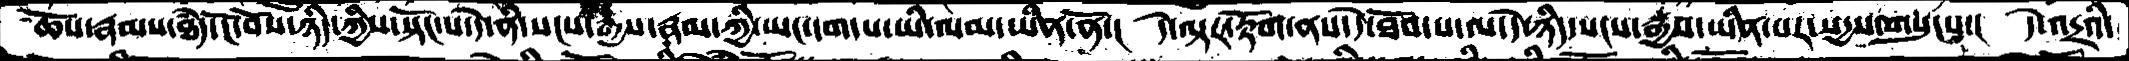ཆོས་རྣམས་ཐཾད་ངོ་བོས་ཉིད་ཀྱིས་སྟོང་པ་དེ་ནི་སངས་རྒྱས་རྣམ་ཀྱི་ཡང་དག་པ་ཡི་ལམ་ཡིན་ནོ་།  དེ་ལྟར་རྟོག་ནས་དེ་ཐོབ་པ་ལ་དེ་ཉིད་སངས་རྒྱས་ཡིན་པར་སདྱས་གསུངས་།  དེ་འདྲའི་
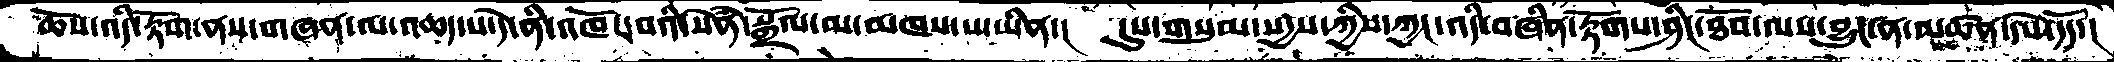ཆོས་འདི་རྟོག་ནས་གཞན་ལ་འཆད་པ་དེ་ནི་འཁོར་བའི་སེཾན་སྒྲོལ་མ་མཁས་པ་ཡིན་།  དུས་གསུམ་སདྱས་ཀྱིས་ཀྱང་འདི་བཞིན་རྟོགས་ཤིང་ཐོབ་ལས་བྱུང་ན་མཚན་དཔེ་དོད་།
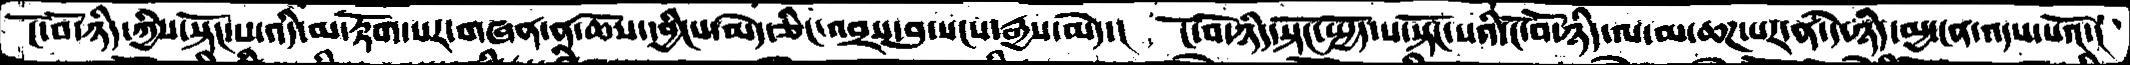ངོ་བོ་ཉིད་ཀྱིས་སྟོང་པ་འདི་མ་རྟོག་པར་གཞན་ན་ཆོས་དབྱིངས་མེད་ཅིང་འབྲས་བུ་སངས་རྒྱས་མེད་།  ངོ་བོ་ཉིད་སྟོང་སྤྱོད་པ་སྟོང་པའི་ངོ་བོ་ཉིད་ལ་མ་ཆཌ་པར་ན་དེ་ཉིད་མྱ་ངན་འདས་པའོ་།
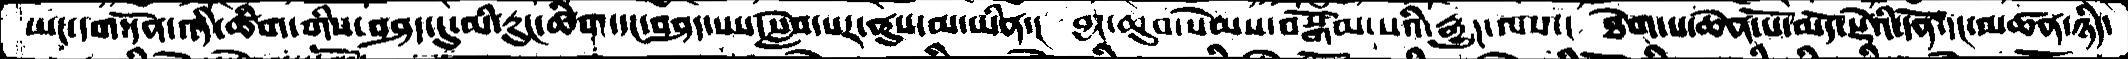ཡང་དག་དོན་འདི་ཚིག་གིས་བཤད་དུ་མི་རུང་ཚིག་དང་བཤད་པས་སླེབ་པར་ནུས་མ་ཡིན་།  བྱང་ཆུབ་སེམས་བསྒོམ་པའི་རྒྱུད་ལས་།  ཐེག་པ་ཆེན་པོ་མདོ་སྡེའི་དོན་དང་མཚན་ཉིད་
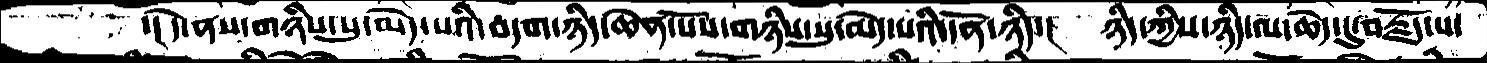་།  དེ་ནས་གཉིས་སུ་མེད་པའི་བདག་ཉིད་ཆེན་པོས་གཉིས་སུ་མེད་པའི་དོན་ཉིད་།  ཉིད་ཀྱིས་ཉིད་ལ་ཆེད་དུ་བརྗོད་པ་
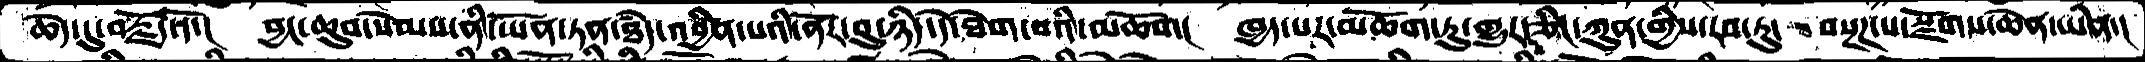ཆེད་དུ་བརྗོད་དོ་།  བྱང་ཆུབ་སེམས་ནི་ཡོན་ཏན་ཐཾད་འབྱིན་པའི་ནོར་བུ་ཉིད་དེ་ཐེག་པའི་མཆོག།  ཁྱད་པར་མཆོག་ཏུ་གྱུར་ཅིང་ཀུན་གྱིས་རབ་ཏུ་  བསྔཌ་པ་སྫོགས་ཆེན་ཡིན་།
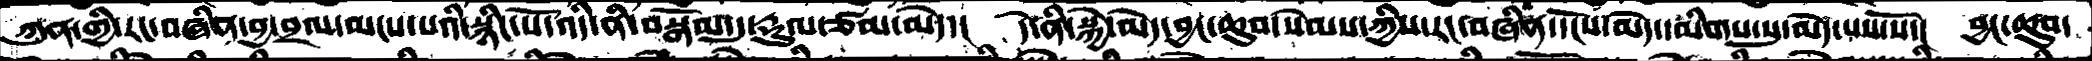ཀུན་གྱི་རང་བཞིན་བྱ་བྲལ་མངས་པའི་སྙིང་པོ་འདི་ནི་བསྒོམ་དུ་རྡུལ་ཙམ་མེད་།  དེ་ནི་སྐྱེ་མེད་བྱང་ཆུབ་སེམས་ཀྱིས་རང་བཞིན་དངོས་མེད་དམིགས་སུ་མེད་པས་སོ་།  བྱང་ཆུབ་
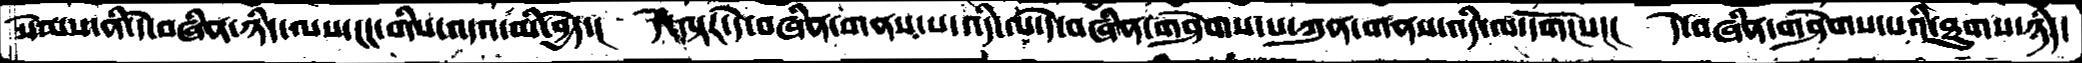སེམས་ནི་དེ་བཞིན་ཉིད་ལས་ངང་གིས་འདའ་མི་བྱེད་།  དེ་ལྟར་དེ་བཞིན་གནས་ས་འདི་ལ་དེ་བཞིན་གཤེགས་པ་ཀུན་གནས་འདི་ལ་དགོངས་།  དེ་བཞིན་གཤེགས་པའི་ཐུགས་ཉིད་
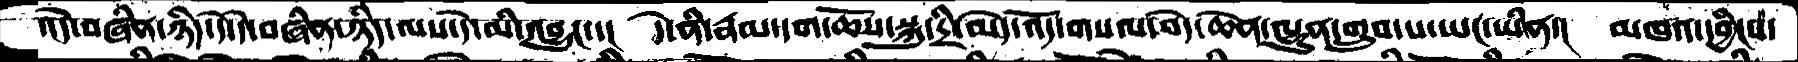་།དེ་བཞིན་ཉིད་དེ་དེ་བཞིན་ཉིད་ལས་དེ་མི་འབྱུང་་།  དེ་ནི་རྣམ་དག་ཆོས་སྐུ་དྲི་མེད་འོད་གསལ་བདེ་ཆེན་ལྷུན་གྲུབ་པ་ཡང་ཡིན་།  མཁའ་དབྱིངས་
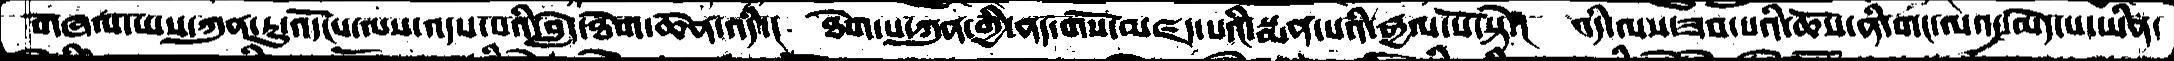གཞལ་ཡས་ཀུན་ཏུ་འདོངས་ལས་འདས་པའི་བླེད་ཐེག་ཆེན་འདི་།  ཐེག་པ་ཀུན་གྱི་ནད་གསོ་མཛད་པའི་སྨན་པའི་རྒྱལ་པོ་སྟེ་།  འདིལས་ཟབ་པའི་ཆོས་ནི་གང་ལའང་མེད་པ་ཡིན་
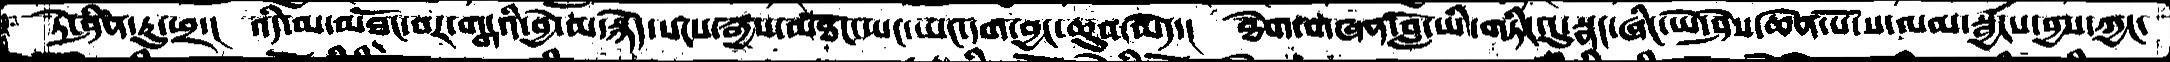ཏེ་ཤིན་ཏུ་ཕྲ་།  འདི་མ་མཐོང་བར་གངྒའི་བྱེ་མ་སྙེད་སངས་རྒྱས་མཐོང་ཡང་ཡང་དག་བྱང་ཆུབ་མེད་།  ཐེག་གཞན་བློ་ཡི་གཏིང་དུ་སྣང་ཞིང་ཡེ་ཤེས་ཆེན་པོ་ས་ལམ་སྦྱངས་བྱས་ཀྱང་
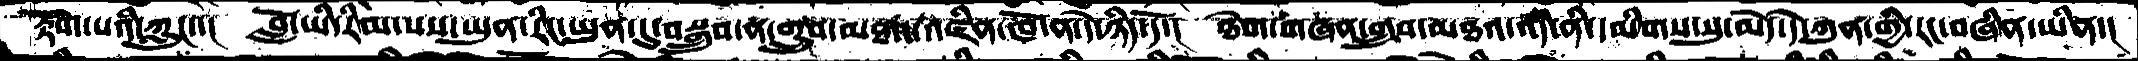རྟོག་པའི་ཀླུང་་།  བློ་ཡི་རིམ་པས་ཡུན་རིང་ཡུན་དུ་བསྒྲུབ་ན་གྲུབ་མཐའ་འཛིན་ཁོ་ན་དེ་ཉིད་དོ་།  ཐེག་གཞན་གྲུབ་མཐའ་འདི་ནི་དམིགས་སུ་མེད་དེ་ཀུན་གྱི་རང་བཞིན་ཡིན་།
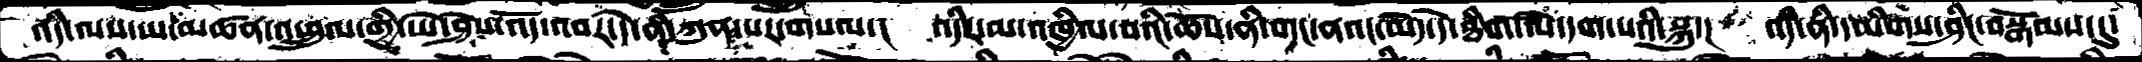འདི་ལས་ཡ་མཚན་འཕྲུལ་གྱི་ཡེ་ཤེས་འོད་འབར་དེ་ནི་ཀུན་སར་གསལ་།  འདིར་མ་འཁྱིལ་བའི་ཆོས་ནི་གང་ནའ།་མེད་དེ་ཐིག་ལེ་དག་པའི་སྐུ་།  འདི་ནི་དམིགས་ཤིང་བསྒོམས་དུ་
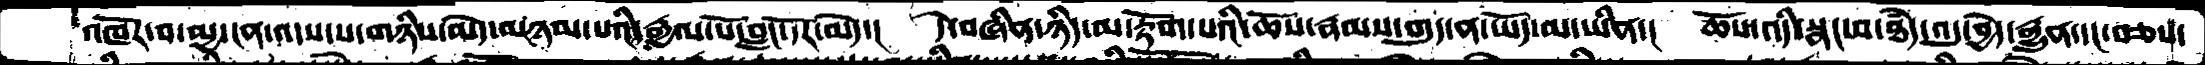འཁོར་བ་མྱ་ངན་འདས་པ་གཉིས་མེད་མཉམ་པའི་རྒྱལ་པོ་བླང་དོར་མེད་།  དེ་བཞིན་ཉིད་མ་རྟོག་པའི་ཆོས་རྣམས་གུད་ན་ཡོད་མ་ཡིན་།  ཆོས་འདི་སྣང་བ་ཐཾད་འདུ་བྱེད་རྒྱུན་དང་བཅས་
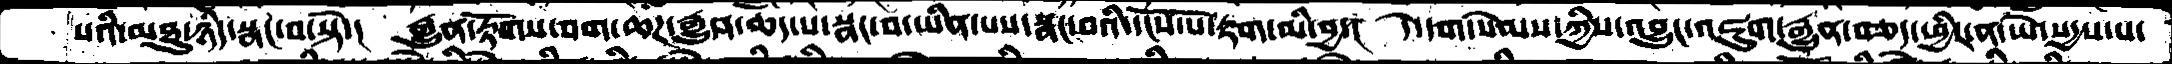པའི་མཐུ་ཉིད་སྣང་བ་སྟེ་།  རྒྱུན་རྟོགས་བག་ཆཌ་རྒྱུན་ཆད་པ་སྣང་བ་ཡིན་པས་སྣང་བའི་དངོས་པོ་རྟག་མི་བྱ་།  དེ་དག་སེམས་ཀྱིས་འབྱུང་འཇུག་རྒྱུན་བཅད་ཕྱིར་ན་ཡེ་སདྱས་པ་
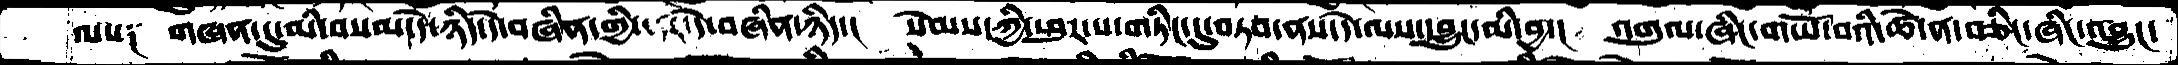ལས༑  གཞན་དུ་མི་བསམ་དེ་ཉིད་དེ་བཞིན་གྱི་དང་དེ་བཞིན་ཉིད་།  སེམས་ཀྱི་ཕུཌ་པ་གཏིང་དུ་བཏབ་ནས་དེ་ལས་དབྱུང་མི་བྱ་།  འགུལ་ཞིང་གཡོ་བའི་ཚེ་ན་བཅིང་ཞིང་འབྱུང་
